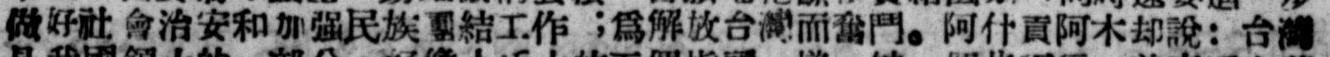做好社會治安和加強民族團結工作；爲解放台灣而奮鬥。阿什貢阿木却說：台灣
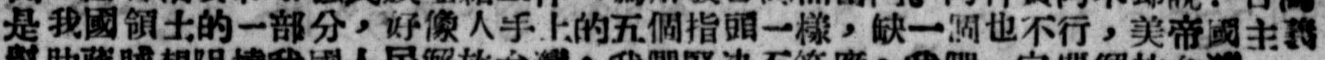是我國領土的一部分，好像人手上的五個指頭一樣，缺一個也不行，美帝國主義
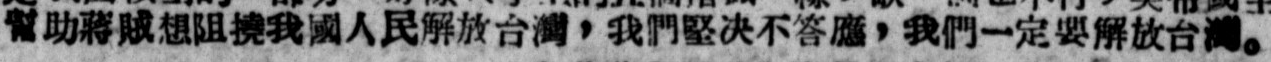幫助蔣賊想阻撓我國人民解放台灣，我們堅決不答應，我們一定要解放台灣。
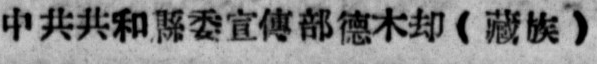中共共和縣委宣傳部德木却（藏族）
